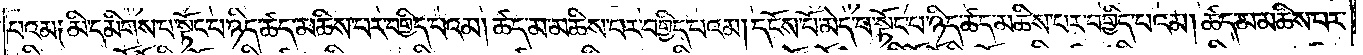པའམ༑ མི་དམིགས་པ་སྟོང་པ་ཉིད་ཚད་མཆིས་པར་བགྱིད་པའམ། ཚད་མ་མཆིས་པར་བགྱིད་པའམ། དངོས་པོ་མེད་པ་སྟོང་པ་ཉིད་ཚད་མཆིས་པར་བགྱིད་པའམ། ཚད་མ་མཆིས་པར་
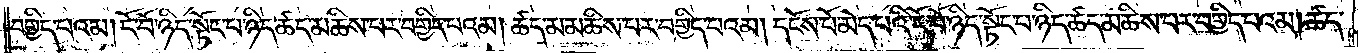བགྱིད་པའམ། ངོ་བོ་ཉིད་སྟོང་པ་ཉིད་ཚད་མཆིས་པར་བགྱིད་པའམ། ཚད་མ་མཆིས་པར་བགྱིད་པའམ། དངོས་པོ་མེད་པའི་ངོ་བོ་ཉིད་སྟོང་པ་ཉིད་ཚད་མཆིས་པར་བགྱིད་པའམ། ཚད་
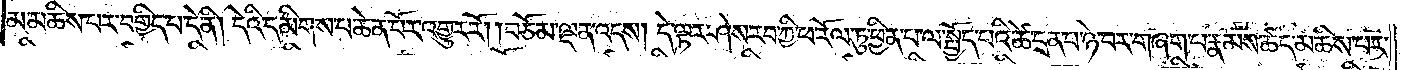མ་མཆིས་པར་བགྱིད་པ་དེ་ནི། དེའི་དམིགས་པ་ཆེན་པོར་འགྱུར་རོ། །བཅོམ་ལྡན་འདས། དེ་ལྟར་ཤེས་རབ་ཀྱི་ཕ་རོལ་ཏུ་ཕྱིན་པ་ལ་སྤྱོད་པའི་ཚེ་དྲན་པ་ཉེ་བར་གཞག་པ་རྣམས་ཚད་མཆིས་པར་
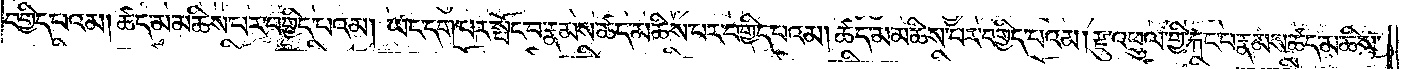བགྱིད་པའམ། ཚད་མ་མཆིས་པར་བགྱིད་པའམ། ཡང་དག་པར་སྤོང་བ་རྣམས་ཚད་མཆིས་པར་བགྱིད་པའམ། ཚད་མ་མཆིས་པར་བགྱིད་པའམ། རྫུ་འཕྲུལ་གྱི་རྐང་པ་རྣམས་ཚད་མཆིས་
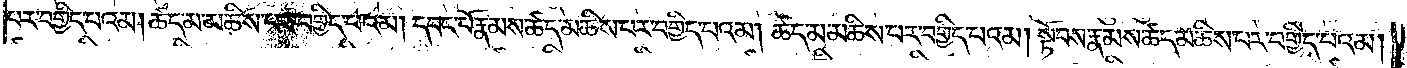པར་བགྱིད་པའམ། ཚད་མ་མཆིས་པར་བགྱིད་པའམ། དབང་པོ་རྣམས་ཚད་མཆིས་པར་བགྱིད་པའམ། ཚད་མ་མཆིས་པར་བགྱིད་པའམ། སྟོབས་རྣམས་ཚད་མཆིས་པར་བགྱིད་པའམ།
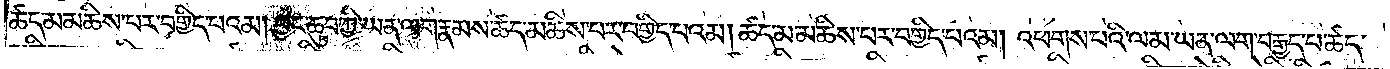ཚད་མ་མཆིས་པར་བགྱིད་པའམ། བྱང་ཆུབ་ཀྱི་ཡན་ལག་རྣམས་ཚད་མཆིས་པར་བགྱིད་པའམ། ཚད་མ་མཆིས་པར་བགྱིད་པའམ། འཕགས་པའི་ལམ་ཡན་ལག་བརྒྱད་པ་ཚད་
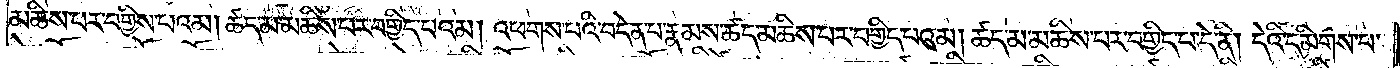མཆིས་པར་བགྱིད་པའམ། ཚད་མ་མཆིས་པར་བགྱིད་པའམ། འཕགས་པའི་བདེན་པ་རྣམས་ཚད་མཆིས་པར་བགྱིད་པའམ། ཚད་མ་མཆིས་པར་བགྱིད་པ་དེ་ནི། དེའི་དམིགས་པ་
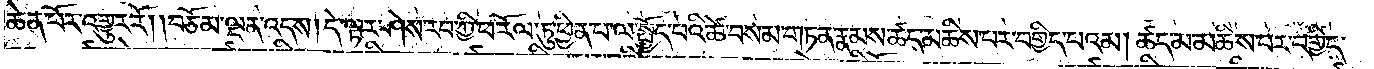ཆེན་པོར་འགྱུར་རོ། །བཅོམ་ལྡན་འདས། དེ་ལྟར་ཤེས་རབ་ཀྱི་ཕ་རོལ་ཏུ་ཕྱིན་པ་ལ་སྤྱོད་པའི་ཚེ་བསམ་གཏན་རྣམས་ཚད་མཆིས་པར་བགྱིད་པའམ། ཚད་མ་མཆིས་པར་བགྱིད་
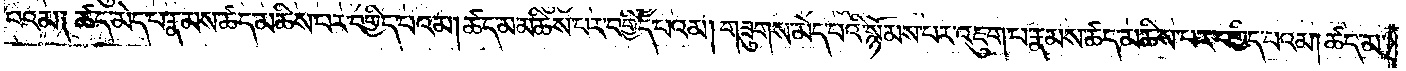པའམ༑ ཚད་མེད་པ་རྣམས་ཚད་མཆིས་པར་བགྱིད་པའམ། ཚད་མ་མཆིས་པར་བགྱིད་པའམ། གཟུགས་མེད་པའི་སྙོམས་པར་འཇུག་པ་རྣམས་ཚད་མཆིས་པར་བགྱིད་པའམ། ཚད་མ་
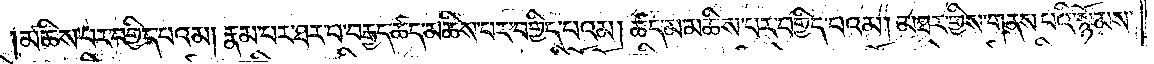མཆིས་པར་བགྱིད་པའམ། རྣམ་པར་ཐར་པ་བརྒྱད་ཚད་མཆིས་པར་བགྱིད་པའམ། ཚད་མ་མཆིས་པར་བགྱིད་པའམ། མཐར་གྱིས་གནས་པའི་སྙོམས་
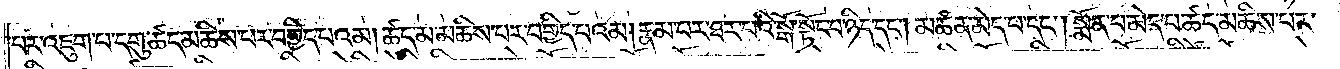པར་འཇུག་པ་དགུ་ཚད་མཆིས་པར་བགྱིད་པའམ། ཚད་མ་མཆིས་པར་བགྱིད་པའམ། རྣམ་པར་ཐར་པའི་སྒོ་སྟོང་པ་ཉིད་དང་མཚན་མ་མེད་པ་དང༌། སྨོན་པ་མེད་པ་ཚད་མཆིས་པར་
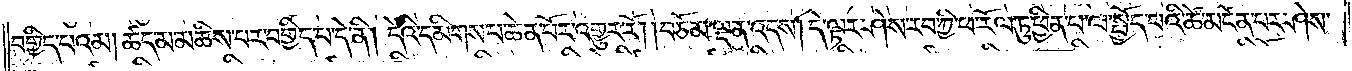བགྱིད་པའམ། ཚད་མ་མཆིས་པར་བགྱིད་པ་དེ་ནི། དེའི་དམིགས་པ་ཆེན་པོར་འགྱུར་རོ། །བཅོམ་ལྡན་འདས། དེ་ལྟར་ཤེས་རབ་ཀྱི་ཕ་རོལ་ཏུ་ཕྱིན་པ་ལ་སྤྱོད་པའི་ཚེ་མངོན་པར་ཤེས་
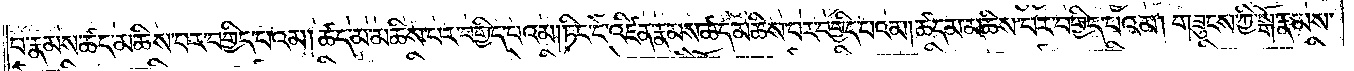པ་རྣམས་ཚད་མཆིས་པར་བགྱིད་པའམ། ཚད་མ་མཆིས་པར་བགྱིད་པའམ། ཏིང་ངེ་འཛིན་རྣམས་ཚད་མཆིས་པར་བགྱིད་པའམ། ཚད་མ་མཆིས་པར་བགྱིད་པའམ། གཟུངས་ཀྱི་སྒོ་རྣམས་
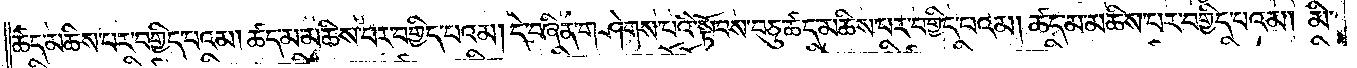ཚད་མཆིས་པར་བགྱིད་པའམ། ཚད་མ་མཆིས་པར་བགྱིད་པའམ། དེ་བཞིན་གཤེགས་པའི་སྟོབས་བཅུ་ཚད་མཆིས་པར་བགྱིད་པའམ། ཚད་མ་མཆིས་པར་བགྱིད་པའམ། མི་
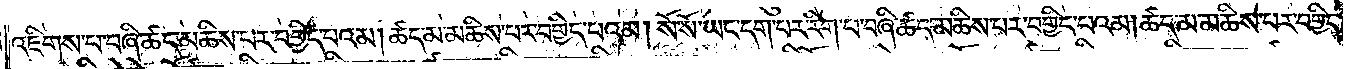འཇིགས་པ་བཞི་ཚད་མཆིས་པར་བགྱིད་པའམ། ཚད་མ་མཆིས་པར་བགྱིད་པའམ། སོ་སོ་ཡང་དག་པར་རིག་པ་བཞི་ཚད་མཆིས་པར་བགྱིད་པའམ། ཚད་མ་མཆིས་པར་བགྱིད་
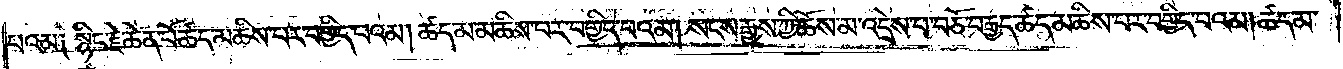པའམ༑ སྙིང་རྗེ་ཆེན་པོ་ཚད་མཆིས་པར་བགྱིད་པའམ། ཚད་མ་མཆིས་པར་བགྱིད་པའམ། སངས་རྒྱས་ཀྱི་ཆོས་མ་འདྲེས་པ་བཅོ་བརྒྱད་ཚད་མཆིས་པར་བགྱིད་པའམ། ཚད་མ་
